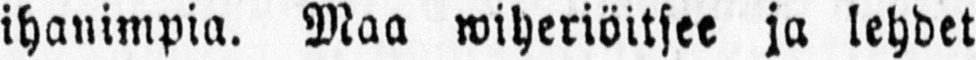ihanimpia. Maa wiheriöitsee ja lehdet
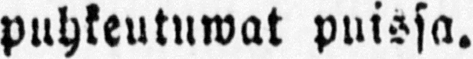puhkeutuwat puissa.
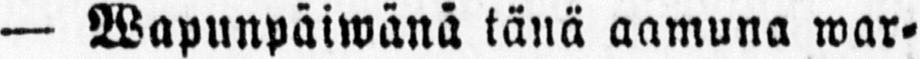— Wapunpäiwänä tänä aamuna war-
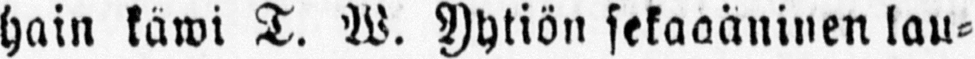hain käwi T. W. yhtiön sekaääninen lau-
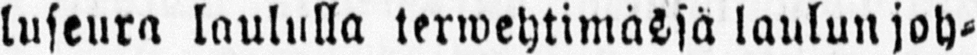luseura laululla terwehtimässä laulun joh-
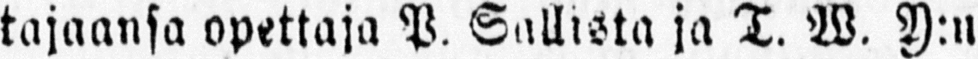tajaansa opettaja P. Sallista ja T. W. Y:n
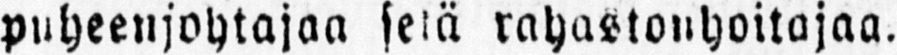puheenjohtajaa sekä rahastonhoitajaa.
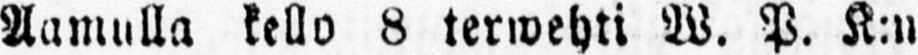Aamulla kello 8 terwehti W. P. K:n
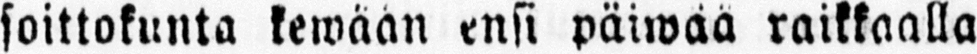soittokunta kewään ensi päiwää raikkaalla
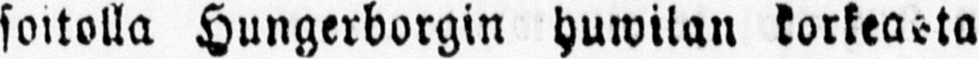soitolla Hungerborgin huwilan korkeasta
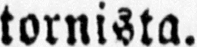tornista.
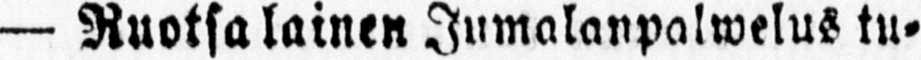— Ruotsalainen Jumalanpalwelus tu-
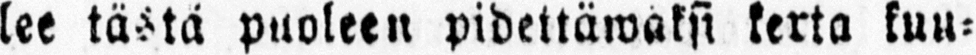lee tästä puoleen pidettäwaksi kerta kuu-
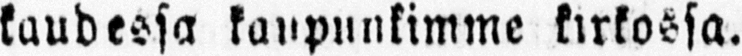kaudessa kaupunkimme kirkossa.
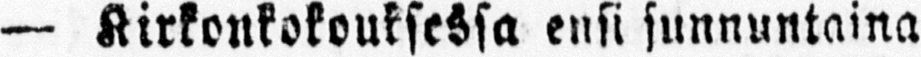— Kirkonkokouksessa ensi sunnuntaina
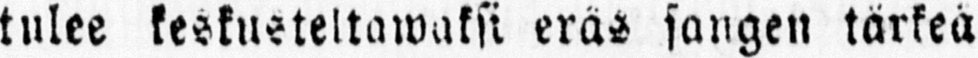tulee keskusteltawaksi eräs sangen tärkeä
